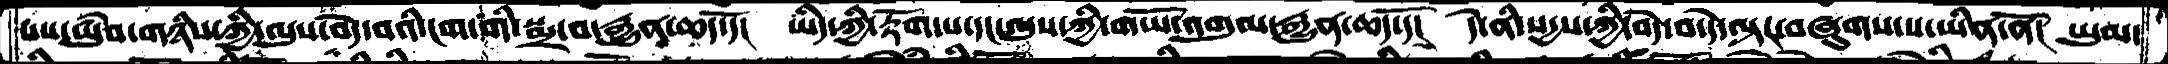པས་ཡུཾབ་གཉིས་ཀྱི་ལུས་བདེ་བའི་ངག་གི་སྨྲ་བ་རྒྱུན་ཆད་དོ་།  ཡིད་ཀྱི་རྟོག་པ་དང་ལུས་ཀྱི་གཡོ་འགུལ་རྒྱུན་ཆད་དོ་།  དེ་ནི་སདྱས་ཀྱི་བདེ་བ་དེ་ལྟར་བཞུགས་པ་ཡིན་ནོ།  ཡུམ་
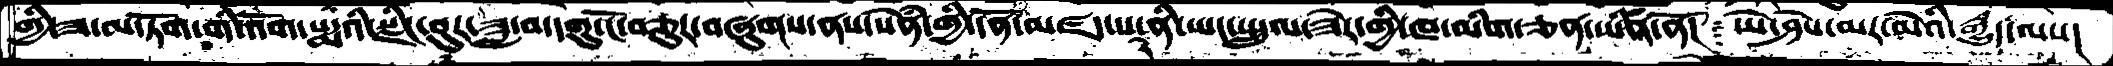གྱི་ཟ་མ་ཏོག་གི་འོག་པདྨའི་སྫིང་བུར་ཟླ་བ་དགུ་ངོ་བཅུར་བཞུགས་ནས་སེཾན་གྱི་དོན་མཛད་པ་ནི་ཡང་སྤྲུལ་ཟེར་གྱི་ཁ་མིག་ཅན་ཡིན་ནོ།  ཡེ་ཤེས་མར་མེའི་རྒྱུད་ལས།
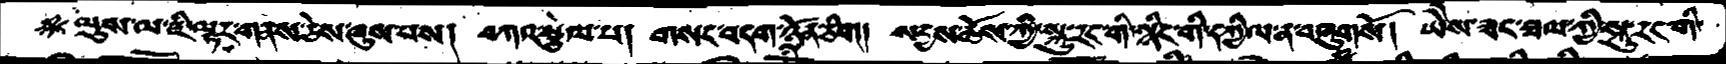ལུས་ལ་ཇི་ལྟར་གནས་ཅེས་ཞུས་པས། བཀའ་སྩལ་པ། གསང་བདག་ཉོན་ཅིག། སདྱས་ཆོས་ཀྱི་སྐུ་རང་གི་སྙིང་གི་དཀྱིལ་ན་བཞུགསོ། ཡཻས་ཟང་ཐལ་གྱི་སྐུ་རང་གི་
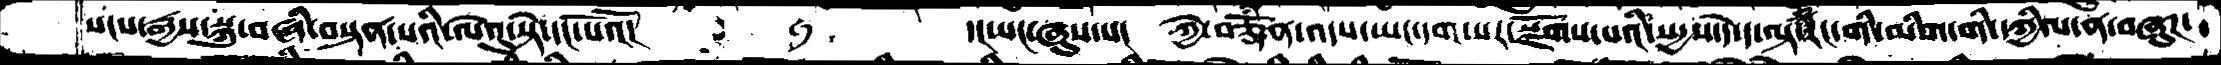སངས་རྒྱས་སྐུ་བཞི་བསྟན་པའི་ལེའུ་སྟེ་དང་པོའོ།      ཧ   ་།ཡང་ཞུས་པ།  ཀྱེ་བཅྡོཾན་འདས་ཡང་དག་པར་སྫོགས་པའི་སདྱས་དེ་ད་ལྟ་རང་གི་མིག་གི་དཀྱིལ་ན་བཞུཌ་
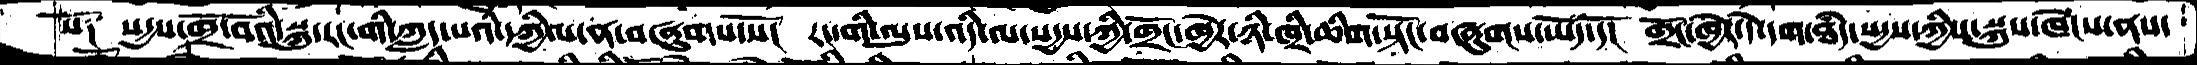སོ༑  སདྱས་ཁྲོ་བའི་སྐུ་རང་གི་ཀླད་པའི་དཀྱིལ་ན་བཞུགས་སོ།  རང་གི་ལུས་འདི་ལ་སདྱས་ཀྱི་གྲོང་ཁྱེར་ཉི་ཁྲི་ཆིག་སྟོང་བཞུགས་ཡོད་དོ་།  གྲོང་ཁྱེར་དེ་དག་ཐཾད་སདྱས་ཀྱིས་སྐུས་ཁེངས་ནས་
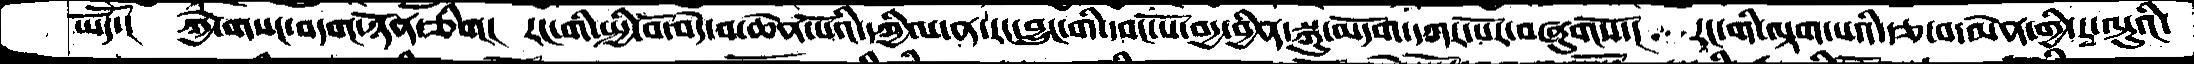ཡོད་།  ཀྱེ་གསང་བདག་ཉོན་ཅིག།  རང་གི་སྤྱི་བོ་བདེ་བ་ཆེན་པོའི་དཀྱིལ་ན་རང་བྱུང་གི་དབང་པོ་བདྱ་བྱིན་སྐུ་མདོག་དཀར་པོར་བཞུགསོ་།  རང་གི་ལྟག་པའི་རྩ་བ་མེན་གྱི་རྭ་ལྟུའི་
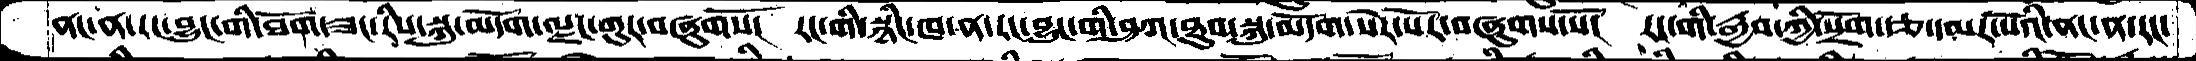ནང་ན་རང་བྱུང་གི་ཐོག་ཟང་རིས་སྐུ་མདོག་ལྗང་གུར་བཞུགསོ་།  རང་གི་སྙིང་ཁ་ན་རང་བྱུང་གི་ཤཀ་ཐུབ་སྐུ་མདོག་སེར་པོར་བཞུགས་སོ།  རང་གི་རྒྱབ་ཀྱི་སྲོག་རྩ་དམར་པོའི་ནང་ན་རང་
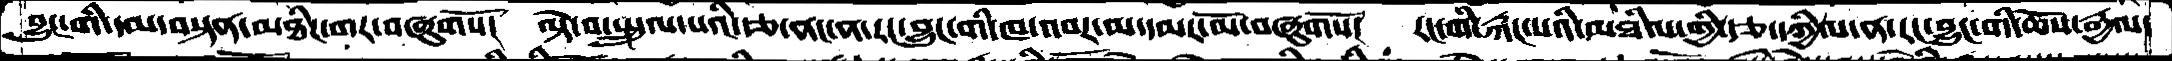བྱུང་གི་དམ་བསྟན་མཐིང་གར་བཞུགསོ།  ལྟེ་བ་སྤྲུལ་པའི་རྩ་ནང་ན་རང་བྱུང་གི་ཁ་འབར་མ་དམར་མོ་བཞུགསོ།  རང་གི་རྐང་པའི་མཐིལ་གྱི་རྩ་དཀྱིལ་ན་རང་བྱུང་གི་ཆོས་རྒྱལ་
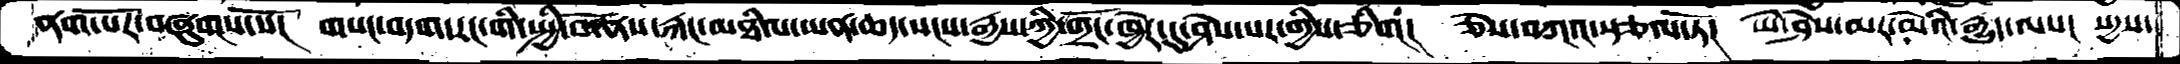ནག་པོར་བཞུགས་སོ།  གསང་བདག་རང་གི་སྤྱི་བོ་ནས་རྐང་མཐིལ་ཡན་ཆད་སངས་རྒྱས་ཀྱི་གྲོང་ཁྱེར་དུ་ཤེས་པར་གྱིས་ཅིག།  ཅེས་བཀའ་སྩལ་ཏོ།  ཡེ་ཤེས་མར་མེའི་རྒྱུད་ལས།  སདྱས་
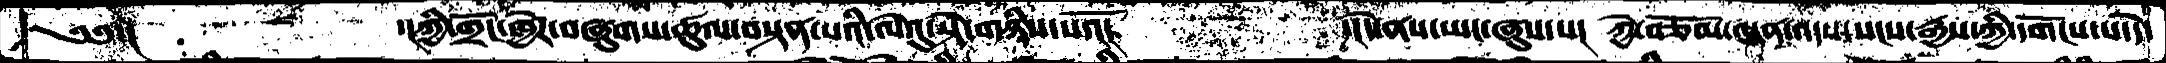༄༅་།        ་།ཀྱི་གྲོང་ཁྱེར་བཞུགས་ཚུལ་བསྟན་པའི་ལེའུ་སྟེ་གཉིས་པའོ།     ་།དེ་ནས་ཡང་ཞུས་པ།  ཀྱེ་བཅོམ་ལྡན་འདས་སངས་རྒྱས་ཀྱི་དགོངས་པ་དེ་
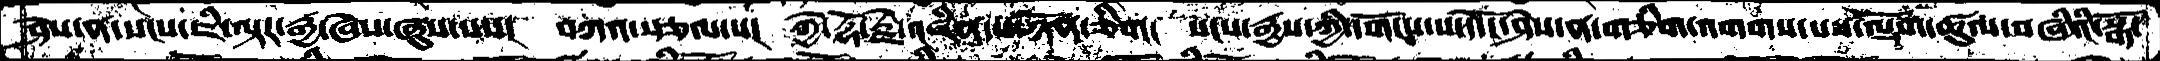ཤེས་ན་སངས་ཇི་ལྟར་རྒྱ་ཞེས་ཞུས་པས།  བཀའ་སྩལ་པ།  ཀྱེ་རྡོ་རྗེ་འཛིན་པ་ཉོན་ཅིག།  སངས་རྒྱས་ཀྱི་དགོངས་པ་དེ་ངོ་ཤེས་ན་གཅིག་འགགས་པས་ལྡོག་ཚུལ་བཞིའི་སྒོ་
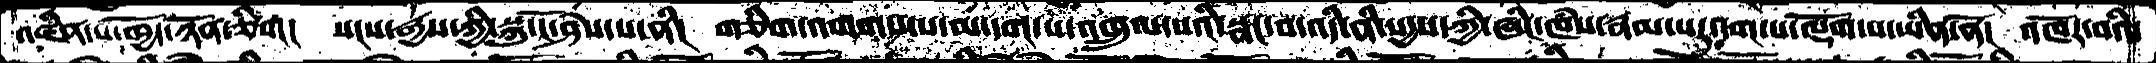འཛིན་པ་ཁྱོད་ཉོན་ཅིག།  སངས་རྒྱས་ཀྱི་སྐུ་ངོ་ཤེས་པ་ནི།  གཅིག་འགགས་པ་མ་དག་པ་འཁྲུལ་པའི་སྣང་བ་འདི་ནི་སདྱས་ཀྱི་ཞིང་ཁཾས་རྣམ་པར་དག་པ་ལྡོག་པ་ཡིན་ནོ།  འཁོར་བའི་
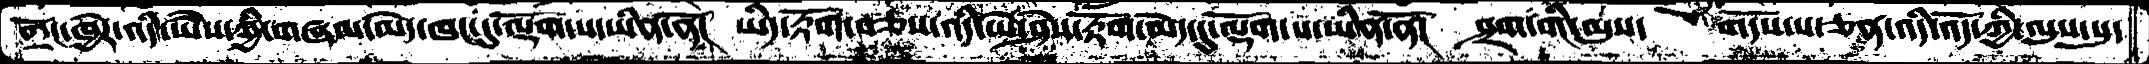གྲོང་ཁྱེར་འདི་ཡཻས་ཀྱི་གཞལ་མེད་ཁང་དུ་ལྡོག་པ་ཡིན་ནོ།  ཡིད་རྟོག་བཅས་འདི་ཡེ་ཤེས་རྟོག་མེད་དུ་ལྡོག་པ་ཡིན་ནོ།  ཤྲག་གི་ལུས།  གདོས་པ་ཅན་འདི་འོད་ཀྱི་ལུས་སུ་
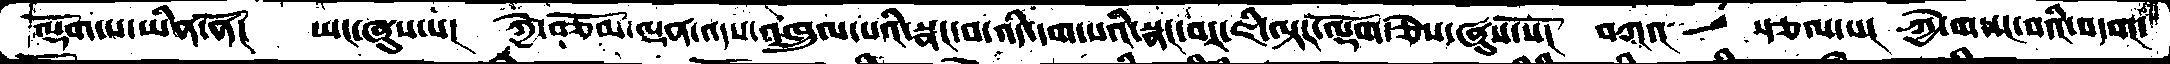ལྡོག་པ་ཡིན་ནོ།  ཡང་ཞུས་པ།  ཀྱེ་བཅོམ་ལྡན་འདས་འཁྲུལ་པའི་སྣང་བ་འདི་དག་པའི་སྣང་བར་ཇི་ལྟར་ལྡོག་ཅེས་ཞུས་སོ།  བཀའ་  སྩལ་པ།  ཀྱེ་གསང་བའི་བདག་
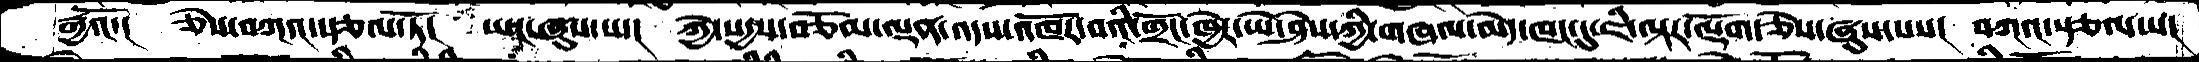རྒྱའོ་།  ཅེས་བཀའ་སྩལ་ཏོ།  ཡང་ཞུས་པ་།  ཀྱེ་སདྱས་བཅོམ་ལྡན་འདས་འཁོར་བའི་གྲོང་ཁྱེར་ཡེ་ཤེས་ཀྱི་གཞལ་མེད་ཁང་དུ་ཇི་ལྟར་ལྡོག་ཅེས་ཞུས་པས།  བཀའ་སྩལ་པ།
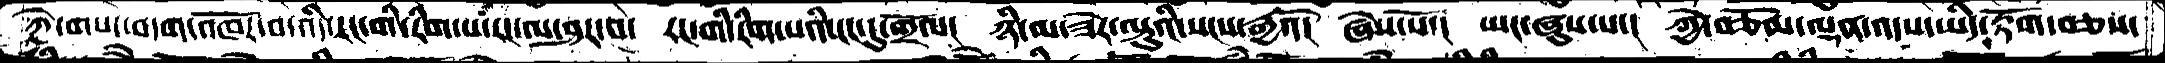ཀྱེ་གསང་བདག་འཁོར་བ་འདི་རང་གི་རིག་པ་རང་ལ་ཤར་བ།  རང་གི་རིག་པའི་ངང་དུ་གྲོལ།  ཉི་མ་ཟེར་ལྟུའི་སངས་རྒྱའོ།  ཞེས་སོ་།  ཡང་ཞུས་པ་།  ཀྱེ་བཅོམ་ལྡན་འདས་ཡིད་རྟོག་བཅས་
